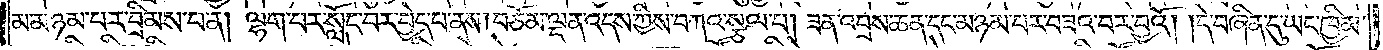མ་མཉམ་པར་བྲིམས་པ་ན། ལྷག་པར་སློང་བར་བྱེད་པ་ནས། བཅོམ་ལྡན་འདས་ཀྱིས་བཀའ་སྩལ་པ། ཟན་འབྲས་ཆན་དང་མཉམ་པར་བཟའ་བར་བྱའོ། །དེ་བཞིན་དུ་ཡང་ཁྱིམ་
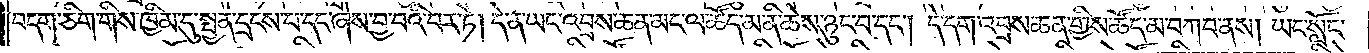བདག་ཅིག་གིས་ཁྱིམ་དུ་སྤྱན་དྲངས་པ་དང་ཞེས་བྱ་བའི་བར་ཏེ། དེ་ན་ཡང་འབྲས་ཆན་མང་ལ་ཚོད་མ་ནི་ཆེས་ཉུང་བ་དང༌། དེ་དག་འབྲས་ཆན་གྱིས་ཚོད་མ་བཀབ་ནས། ཡང་སློང་
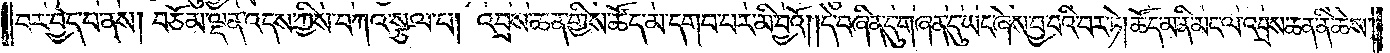བར་བྱེད་པ་ནས། བཅོམ་ལྡན་འདས་ཀྱིས་བཀའ་སྩལ་པ། འབྲས་ཆན་གྱིས་ཚོད་མ་དགབ་པར་མི་བྱའོ། །དེ་བཞིན་དུ་གཞན་དུ་ཡང་ཞེས་བྱ་བའི་བར་ཏེ། ཚོད་མ་ནི་མང་ལ་འབྲས་ཆན་ནི་ཆེས་
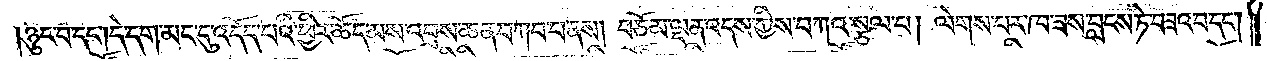ཉུང་བ་དང༌། དེ་དག་མང་དུ་འདོད་པའི་ཕྱིར་ཚོད་མས་འབྲས་ཆན་བཀབ་པ་ནས། བཅོམ་ལྡན་འདས་ཀྱིས་བཀའ་སྩལ་པ། ལེགས་པར་ཁ་ཟས་བླངས་ཏེ་བཟའ་བ་དང༌།
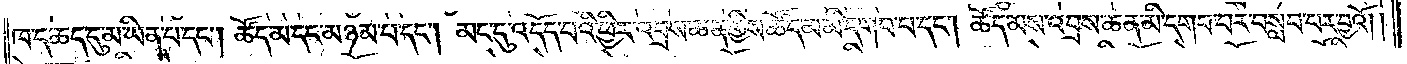ཁ་ད་ཆད་དུ་མ་ཡིན་པ་དང༌། ཚོད་མ་དང་མཉམ་པ་དང༌། མང་དུ་འདོད་པའི་ཕྱིར་འབྲས་ཆན་གྱིས་ཚོད་མ་མི་དགབ་པ་དང༌། ཚོད་མས་འབྲས་ཆན་མི་དགབ་པར་བསླབ་པར་བྱའོ། །
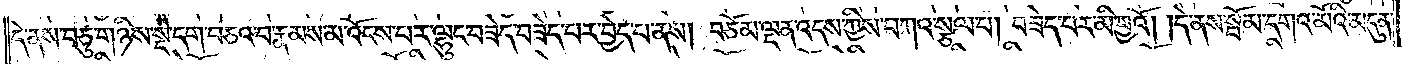དེ་ནས་བཅུ་གཉིས་སྡེ་དག་བཅའ་བ་རྣམས་མ་འོངས་པར་ལྷུང་བཟེད་བཟེད་པར་བྱེད་པ་ནས། བཅོམ་ལྡན་འདས་ཀྱིས་བཀའ་སྩལ་པ། བཟེད་པར་མི་བྱའོ། །དེ་ནས་སྦོམ་དགའ་མོའི་མདུན་
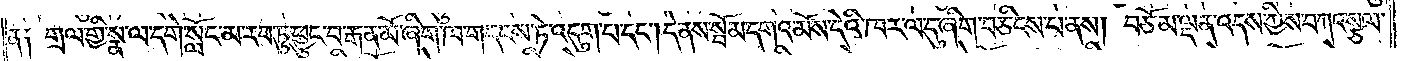ན༑ གྲལ་གྱི་སྣ་ལ་དགེ་སློང་མ་རབ་ཏུ་ཕྱུང་བ་རྒན་མོ་ཞིག་ཁ་གདངས་ཏེ་འདུག་པ་དང༌། དེ་ནས་སྦོམ་དགའ་མོས་དེའི་ཁར་ལ་དུ་ཞིག་བཅིངས་པ་ནས། བཅོམ་ལྡན་འདས་ཀྱིས་བཀའ་སྩལ་
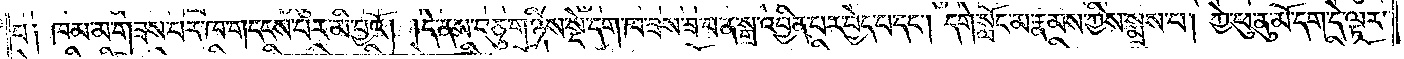པ༑ ཁམ་མ་གཟས་པར་ཁ་གདངས་པར་མི་བྱའོ། །དེ་ནས་བཅུ་གཉིས་སྡེ་དག་ཁ་ཟས་ཟ་བ་ན་སྒྲ་འབྱིན་པར་བྱེད་པ་དང༌། དགེ་སློང་མ་རྣམས་ཀྱིས་སྨྲས་པ། ཀྱེ་ཕུ་ནུ་མོ་དག་དེ་ལྟར་
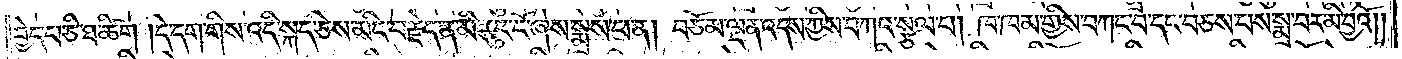བྱེད་པ་ཅི་ཐ་ཚིག །དེ་དག་གིས་འདི་སྐད་ཅེས་མིང་བརྗེད་ན་མི་རུང་ངོ་ཞེས་སྨྲས་པ་ན། བཅོམ་ལྡན་འདས་ཀྱིས་བཀའ་སྩལ་པ། ཁ་ཁམ་གྱིས་བཀང་པ་དང་བཅས་པས་སྨྲ་བར་མི་བྱའོ། །
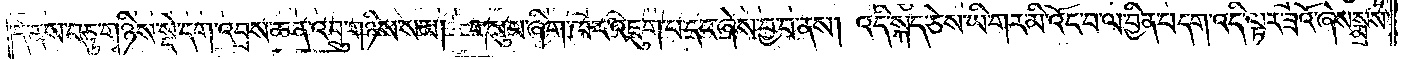དེ་ནས་བཅུ་གཉིས་སྡེ་དག་འབྲས་ཆན་འབྲུ་གཉིས་སམ། གསུམ་ཞིག་ཁར་འཇུག་པ་དང་ཞེས་བྱ་བ་ནས། འདི་སྐད་ཅེས་ཡི་གར་མི་འོང་བ་ལ་བྱིན་པ་དང་འདི་ལྟར་ཟའོ་ཞེས་སྨྲས་
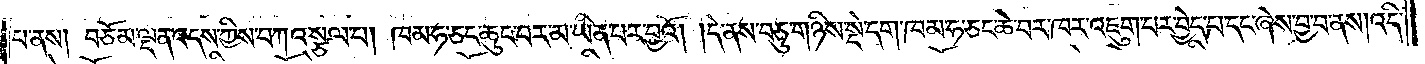པ་ནས། བཅོམ་ལྡན་འདས་ཀྱིས་བཀའ་སྩལ་པ། ཁམ་ཧ་ཅང་ཆུང་བར་མ་ཡིན་པར་བྱའོ། །དེ་ནས་བཅུ་གཉིས་སྡེ་དག་ཁམ་ཧ་ཅང་ཆེ་བར་ཁར་འཇུག་པར་བྱེད་པ་དང་ཞེས་བྱ་བ་ནས། འདི་
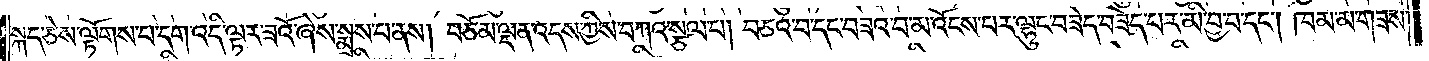སྐད་ཅེས་ལྟོགས་པ་དག་འདི་ལྟར་ཟའོ་ཞེས་སྨྲས་པ་ནས། བཅོམ་ལྡན་འདས་ཀྱིས་བཀའ་སྩལ་པ། བཅའ་བ་དང་བཟའ་བ་མ་འོངས་པར་ལྷུང་བཟེད་བཟེད་པར་མི་བྱ་བ་དང༌། ཁམ་མ་གཟས་
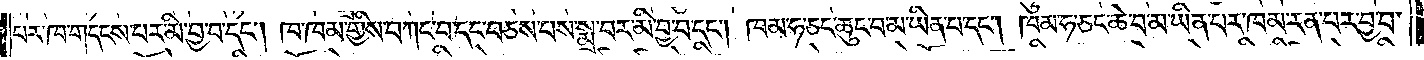པར་ཁ་གདངས་པར་མི་བྱ་བ་དང༌། ཁ་ཁམ་གྱིས་བཀང་བ་དང་བཅས་པས་སྨྲ་བར་མི་བྱ་བ་དང༌། ཁམ་ཧ་ཅང་ཆུང་བ་མ་ཡིན་པ་དང༌། ཁམ་ཧ་ཅང་ཆེ་བ་མ་ཡིན་པར་ཁམ་རན་པར་བྱ་བ་
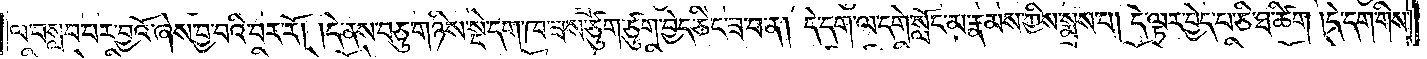ལ་བསླབ་པར་བྱའོ་ཞེས་བྱ་བའི་བར་རོ། །དེ་ནས་བཅུ་གཉིས་སྡེ་དག་ཁ་ཟས་ཙུག་ཙུག་བྱེད་ཅིང་ཟ་བ་ན། དེ་དག་ལ་དགེ་སློང་མ་རྣམས་ཀྱིས་སྨྲས་པ། དེ་ལྟར་བྱེད་པ་ཅི་ཐ་ཚིག །དེ་དག་གིས་
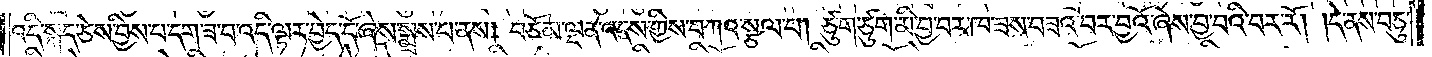འདི་སྐད་ཅེས་བྱིས་པ་དག་ཟ་བ་འདི་ལྟར་བྱེད་དོ་ཞེས་སྨྲས་པ་ནས། བཅོམ་ལྡན་འདས་ཀྱིས་བཀའ་སྩལ་པ། ཙུག་ཙུག་མི་བྱ་བར་ཁ་ཟས་བཟའ་བར་བྱའོ་ཞེས་བྱ་བའི་བར་རོ། །དེ་ནས་བཅུ་
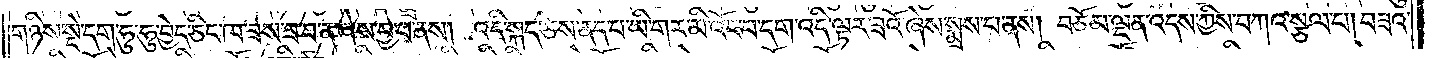གཉིས་སྡེ་དག་ཧུ་ཧུ་བྱེད་ཅིང་ཁ་ཟས་ཟ་བ་ན་ཞེས་བྱ་བ་ནས། འདི་སྐད་ཅེས་ནད་པ་ཡི་གར་མི་འོང་བ་དག་འདི་ལྟར་ཟའོ་ཞེས་སྨྲས་པ་ནས། བཅོམ་ལྡན་འདས་ཀྱིས་བཀའ་སྩལ་པ། བཟའ་
